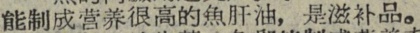能制成营养很高的魚肝油，是滋补品。
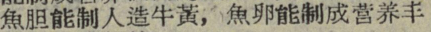魚胆能制人造牛黃，魚卵能制成营养丰
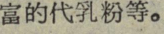富的代乳粉等。
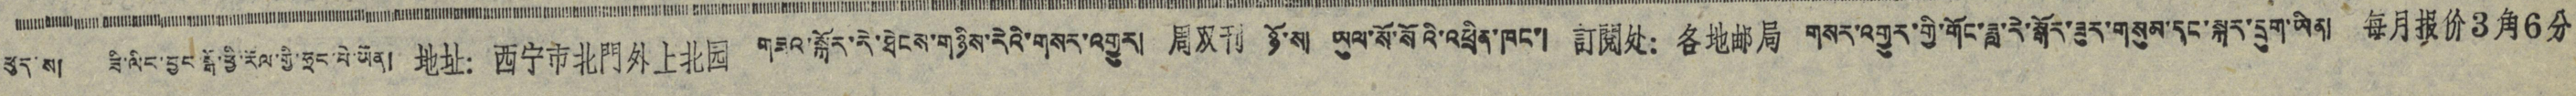ཕུད་ས། ཟི་ལིང་བྱང་སྒོ་ཕྱི་རལ་གྱི་ཧྲང་པེ་ཡོན། 地址：西宁市北門外上北园 གཟའ་སྐོར་རེ་ཐེངས་གཉིས་རེའི་གསར་འགྱུར། 周双刊 ཉོ་ས། ཡུལ་སོ་སོའི་འཕྲིན་ཁང་། 訂閱处： 各地邮局 གསར་འགྱུར་གྱི་གོང་ཟླ་རེ་སྒོར་ཟུར་གསུམ་དང་སྐར་དྲུག་ཡིན། 每月报价3角6分
